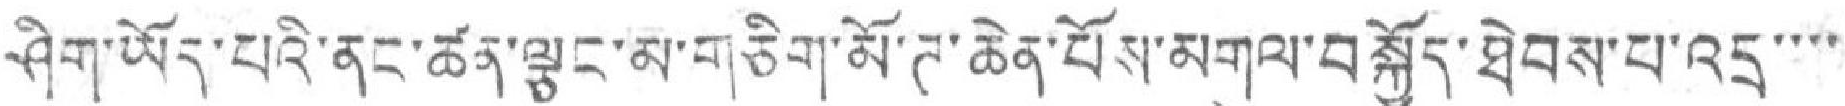ཤིག་ཡོད་པའི་ནང་ཚན་ལྕང་མ་གཅིག་མོ་ཊ་ཆེན་པོས་མགུལ་བསྐྱོད་ཐེབས་པ་འདྲ་་་་
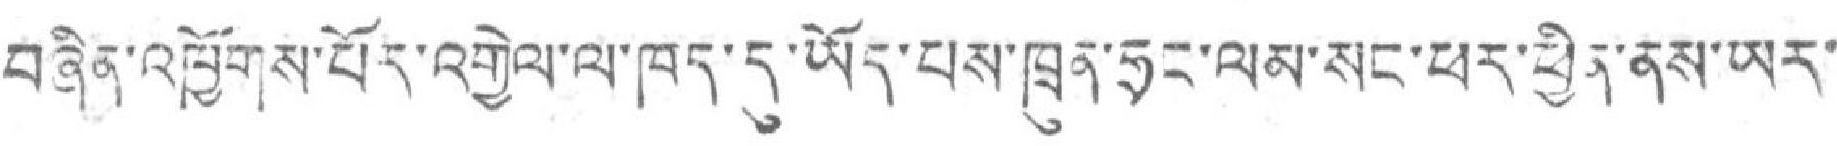བཞིན་འཁྱོགས་པོར་འགྱེལ་ལ་ཁད་དུ་ཡོད་པས་ཁྲུན་ཧྲང་ལམ་སུང་ཕར་ཕྱིན་ནས་ཡར་་
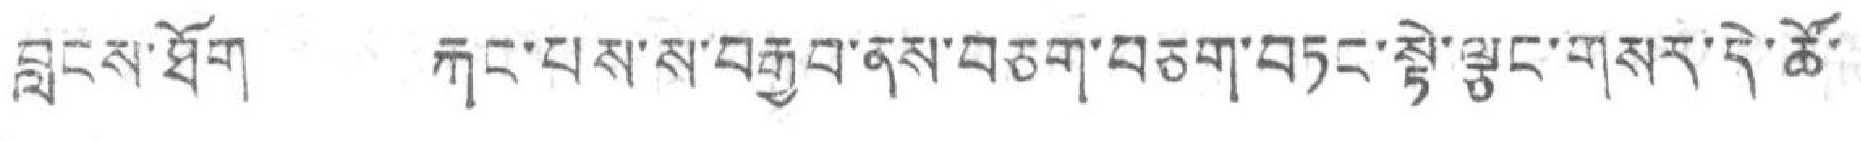བླངས་ཐོག ཀྐང་པས་ས་བརྒྱབ་ནས་བཅག་བཅག་བཏང་སྟེ་ལྕང་གསར་དེ་ཚོ་
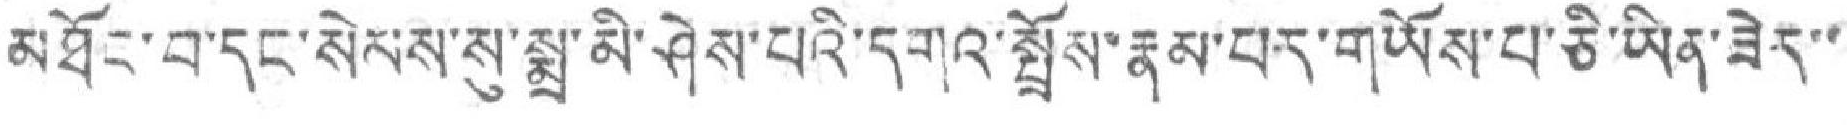མཐོང་བ་དང་སེམས་སུ་སྨྲ་མི་ཤེས་པའི་དགའ་སྤྲོས་རྣམ་པར་གཡོས་པ་ཅི་ཡིན་ཟེར་་
